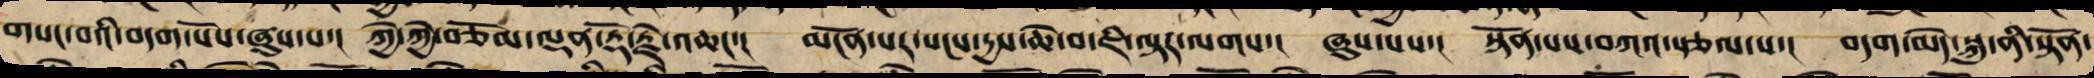གསང་བའི་བདག་པོས་ཞུས་པ་། ཀྱེ་ཀྱེ་བཅོམ་ལྡན་རྡོ་རྗེ་འཆང་། མངོན་པར་སངས་དྱས་ཆེ་བ་ཇི་ལྟར་ལགས་། ཞུས་པས་། སྟོན་པས་བཀའ་སྩལ་པ་། བདག་མེད་སྐུ་ནི་སྟོན་
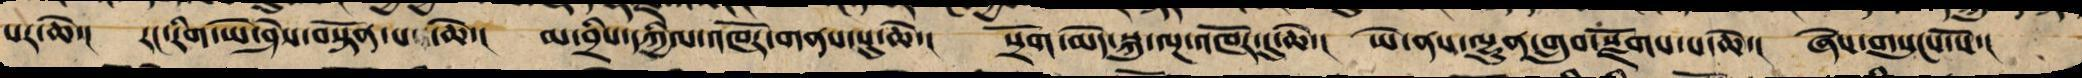པ་ཆེ་། རང་རིག་ཡེ་ཤེས་བསྟོན་པ་ཆེ་། མ་བྲིས་དཀྱིལ་འཁོར་གནས་སུ་ཆེ་། སྲོག་མེད་སྐུ་ལྔ་འཁོར་དུ་ཆེ་། ཡེ་ནས་ལྷུན་གྲུབ་དུས་སུ་ཆེ་། ཞེས་གསུངས་སོ་།
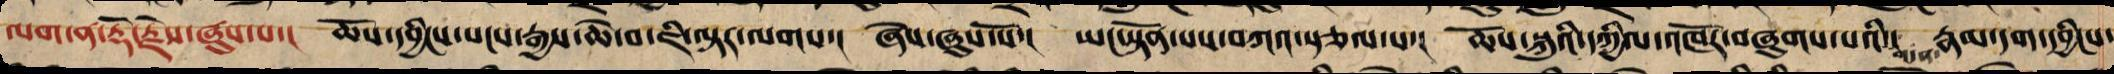ལག་ན་རྡོ་རྗེས་ཞུས་པ་། ཆོས་དབྱིངས་སངས་རྒྱས་ཆེ་བ་ཇི་ལྟར་ལགས་། ཞེས་ཞུས་སོ་། ཡང་སྟོན་པས་བཀའ་སྩལ་པ་། ཆོས་སྐུའི་དཀྱིལ་འཁོར་བཞུགས་པའི་གདན་། རྣམ་དག་དབྱིངས་
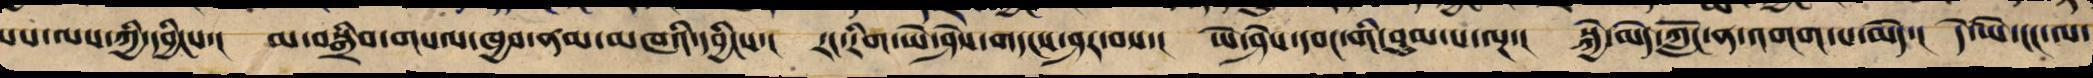པས་ལས་ཀྱི་དབྱིངས་། མ་བསྒྲིབས་གསལ་ཁྱབ་ནམ་མཁའི་དབྱིངས་། རང་རིག་ཡེ་ཤེས་གདངས་ཤར་བས་། ཡེ་ཤེས་དབང་གི་བུམ་པ་ལྔ་། སྐྱེ་མེད་ཀློང་ནས་འགག་པ་མེད་། དེ་ཡི་ངང་ལ་
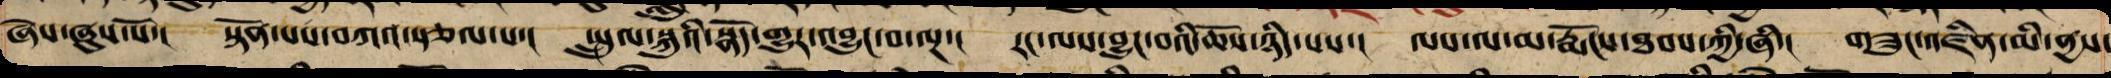ཞེས་ཞུས་སོ་། སྟོན་པས་བཀའ་སྩལ་པ་། སྤྲུལ་སྐུའི་སྣོད་གྱུར་འབྱུང་བ་ལྔ་། རང་ལས་བྱུང་བའི་ཆོས་ཉིད་པས་། ལས་ལ་མ་རྨོངས་ཐབས་ཀྱིས་ཞི་། གཟུང་འཛིན་མི་ནྱས་
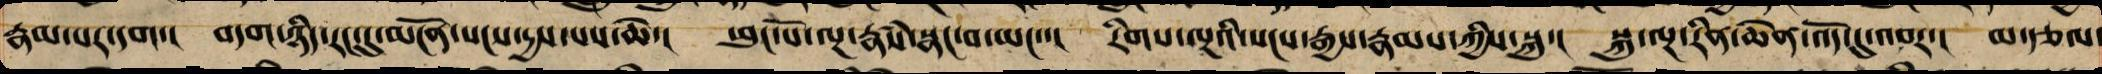རྣམ་པར་དག་། བདག་ཉིད་རང་དུ་མངོན་སངས་དྱས་པས་ཆེ་། ཕུང་པོ་ལྔ་རྣཾས་སྣང་བ་ཡང་་། རིགས་ལྔའི་སངས་རྒྱས་རྣམས་ཀྱི་སྐུ་། སྐུ་ལྔ་རིན་ཆེན་འོད་དུ་འབར་། མ་རྩལ
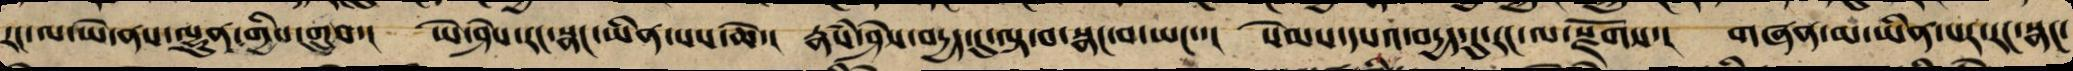རང་ལ་ཡེ་ནས་ལྷུན་གྱིས་གྲུབ་། ཡེ་ཤེས་རང་སྣང་ཡིན་པས་ཆེ་། རྣཾས་ཤེས་བདྱད་དུ་ལྟ་བ་སྣང་བ་ཡང་་། སེམས་དཔའ་བདྱད་དུ་རང་ལ་སྫོགས་། གཞན་མ་ཡིན་པར་རང་སྣང་
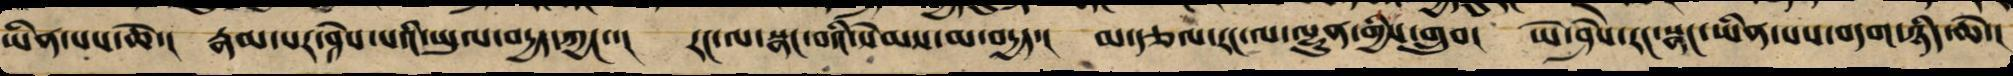ཡིན་པས་ཆེ་། རྣམ་པར་ཤེས་པའི་ཡུལ་བདྱད་ཀྱང་་། རང་ལ་སྣང་བའི་སེམས་མ་བདྱད་། མ་རྩལ་རང་ལ་ལྷུན་གྱིས་གྲུབ་། ཡེ་ཤེས་རང་སྣང་ཡིན་པས་བདག་ཉིད་ཆེ་།
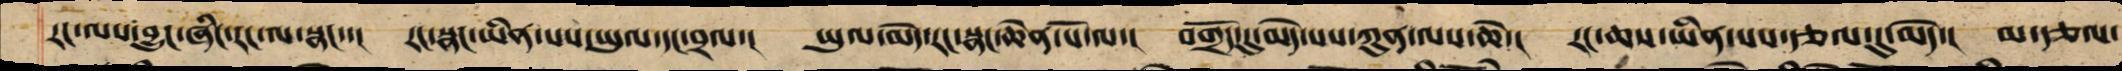རང་ལས་བྱུང་ཞིང་རང་ལས་སྣང་་། རང་སྣང་ཡིན་པས་ཡུལ་དང་བྲལ་། ཡུལ་མེད་རང་སྣང་ཆེན་པོ་ལ་། བགྲོད་དུ་མེད་པས་ཀུན་ལས་ཆེ་། རང་ཆས་ཡིན་པས་རྩལ་དུ་མེད་། མ་རྩལ་
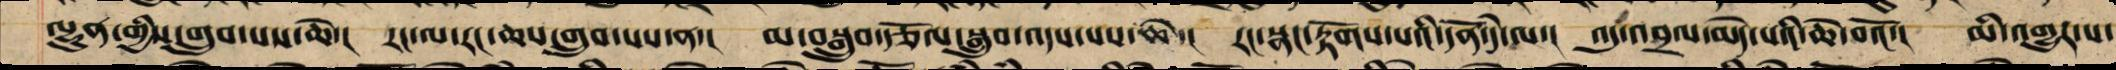ལྷུན་གྱིས་གྲུབ་པས་ཆེ་། རང་ལ་རང་ཆས་གྲུབ་པས་ན་། མ་བསྒྲུབ་རྩོལ་སྒྲུབ་འདུས་པས་ཆེ་། རང་སྣང་རྟོགས་པའི་དོན་དེ་ལ་། འདུ་འབྲལ་མེད་པའི་ཆེ་བའོ་། མི་འགྱུར་པ་
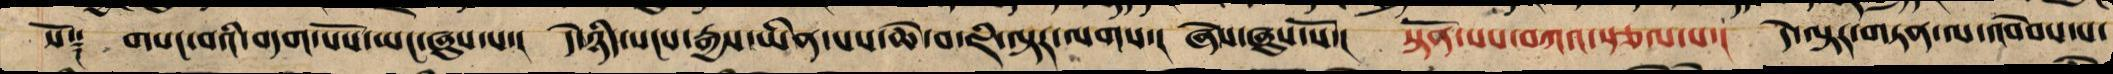སོ༑ གསང་བའི་བདག་པོས་ཡང་ཞུས་པ་། དེ་ཉིད་སངས་རྒྱས་ཡིན་པས་ཆེ་བ་ཇི་ལྟར་ལགས་། ཞེས་ཞུས་སོ་། སྟོན་པས་བཀའ་སྩལ་པ་། དེ་ལྟར་གཏན་ལ་འབེབས་པ་
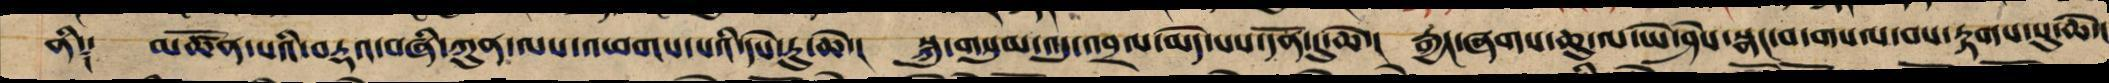ནི༑ མཚོན་པའི་བརྡའ་བཞི་ཀུན་ལས་འཕགས་པའི་དཔེ་རུ་ཆེ་། སྐུ་གསུམ་འདུ་འབྲལ་མེད་པས་དོན་དུ་ཆེ་། རྒྱང་ཞགས་ཆུ་ལ་ཡེ་ཤེས་སྣང་བ་གསལ་བས་རྟགས་སུ་ཆེ་།
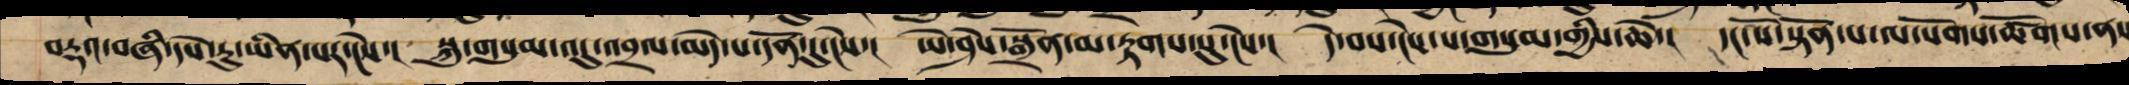བརྡའ་བཞི་དཔེ་རུ་ཡིན་པར་ངེས་། སྐུ་གསུམ་འདུ་འབྲལ་མེད་པ་དོན་དུ་ངེས་། ཡེ་ཤེས་སྒྲོན་མ་རྟགས་སུ་ངེས་། དེ་བས་ངེས་པ་གསུམ་གྱིས་ཆེ་། དང་པོ་སྟོན་པ་ལ་སོགས་ཚོགས་ནས
